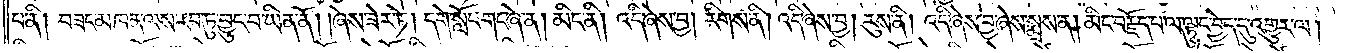པ་ནི། བཟང་མཁན་ལས་རབ་ཏུ་བྱུང་བ་ཡིན་ནོ། །ཞེས་ཟེར་ཏེ། དགེ་སློང་གང་ཞེ་ན། མིང་ནི། འདི་ཞེས་བྱ། རིགས་ནི། འདི་ཞེས་བྱ། རུས་ནི། འདི་ཞེས་བྱ་ཞེས་སྨྲས་ན། མིང་བརྗོད་པ་ལ་ལྟུང་བྱེད་དུ་འགྱུར་ལ།
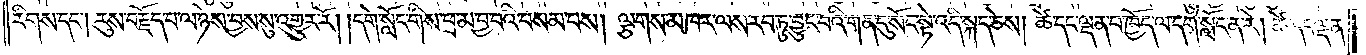རིགས་དང༌། རུས་བརྗོད་པ་ལ་ཉེས་བྱས་སུ་འགྱུར་རོ། །དགེ་སློང་གིས་ཕྲ་མ་བྱ་བའི་བསམ་པས། ལྕགས་མཁར་ལས་རབ་ཏུ་བྱུང་བའི་གན་དུ་སོང་སྟེ་འདི་སྐད་ཅེས། ཚེ་དང་ལྡན་པ་ཁྱོད་ལ་དགེ་སློང་ན་རེ། ཚེ་དང་ལྡན་
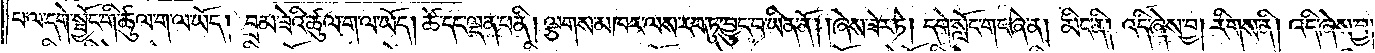པ་ལ་དགེ་སྦྱོང་གི་ཚུལ་ག་ལ་ཡོད། བྲམ་ཟེའི་ཚུལ་ག་ལ་ཡོད། ཚེ་དང་ལྡན་པ་ནི། ལྕགས་མཁར་ལས་རབ་ཏུ་བྱུང་བ་ཡིན་ནོ། །ཞེས་ཟེར་ཏེ། དགེ་སློང་གང་ཞེ་ན། མིང་ནི། འདི་ཞེས་བྱ། རིགས་ནི། འདི་ཞེས་བྱ།
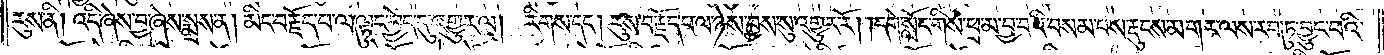རུས་ནི། འདི་ཞེས་བྱ་ཞེས་སྨྲས་ན། མིང་བརྗོད་པ་ལ་ལྟུང་བྱེད་དུ་འགྱུར་ལ། རིགས་དང༌། རུས་བརྗོད་པ་ལ་ཉེས་བྱས་སུ་འགྱུར་རོ། །དགེ་སློང་གིས་ཕྲ་མ་བྱ་བའི་བསམ་པས་རྡུངས་མགར་ལས་རབ་ཏུ་བྱུང་བའི་
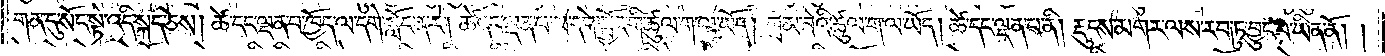གན་དུ་སོང་སྟེ་འདི་སྐད་ཅེས། ཚེ་དང་ལྡན་པ་ཁྱོད་ལ་དགེ་སློང་ན་རེ། ཚེ་དང་ལྡན་པ་ལ་དགེ་སྦྱོང་གི་ཚུལ་ག་ལ་ཡོད། བྲམ་ཟེའི་ཚུལ་ག་ལ་ཡོད། ཚེ་དང་ལྡན་པ་ནི། རྡུངས་མགར་ལས་རབ་ཏུ་བྱུང་བ་ཡིན་ནོ། །
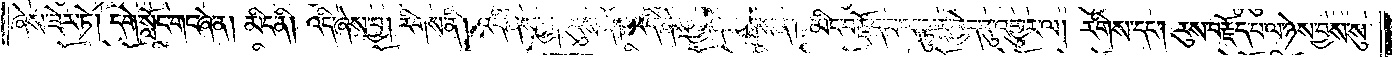ཞེས་ཟེར་ཏེ། དགེ་སློང་གང་ཞེ་ན། མིང་ནི། འདི་ཞེས་བྱ། རིགས་ནི། འདི་ཞེས་བྱ། རུས་ནི། འདི་ཞེས་བྱ་ཞེས་སྨྲས་ན། མིང་བརྗོད་པ་ལ་ལྟུང་བྱེད་དུ་འགྱུར་ལ། རིགས་དང༌། རུས་བརྗོད་པ་ལ་ཉེས་བྱས་སུ་
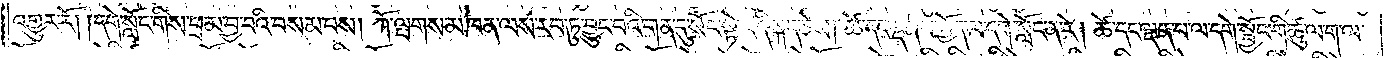འགྱུར་རོ། །དགེ་སློང་གིས་ཕྲ་མ་བྱ་བའི་བསམ་པས། ཀོ་ལྤགས་མཁན་ལས་རབ་ཏུ་བྱུང་བའི་གན་དུ་སོང་སྟེ་འདི་སྐད་ཅེས། ཚེ་དང་ལྡན་པ་ཁྱོད་ལ་དགེ་སློང་ན་རེ། ཚེ་དང་ལྡན་པ་ལ་དགེ་སྦྱོང་གི་ཚུལ་ག་ལ་
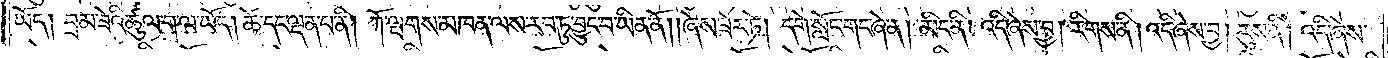ཡོད། བྲམ་ཟེའི་ཚུལ་ག་ལ་ཡོད། ཚེ་དང་ལྡན་པ་ནི། ཀོ་ལྤགས་མཁན་ལས་རབ་ཏུ་བྱུང་བ་ཡིན་ནོ། །ཞེས་ཟེར་ཏེ། དགེ་སློང་གང་ཞེ་ན། མིང་ནི། འདི་ཞེས་བྱ། རིགས་ནི། འདི་ཞེས་བྱ། རུས་ནི། འདི་ཞེས་
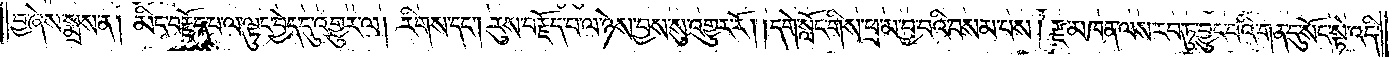བྱ་ཞེས་སྨྲས་ན། མིང་བརྗོད་པ་ལ་ལྟུང་བྱེད་དུ་འགྱུར་ལ། རིགས་དང༌། རུས་བརྗོད་པ་ལ་ཉེས་བྱས་སུ་འགྱུར་རོ། །དགེ་སློང་གིས་ཕྲ་མ་བྱ་བའི་བསམ་པས། རྫ་མཁན་ལས་རབ་ཏུ་བྱུང་བའི་གན་དུ་སོང་སྟེ་འདི་
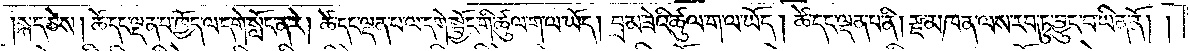སྐད་ཅེས། ཚེ་དང་ལྡན་པ་ཁྱོད་ལ་དགེ་སློང་ན་རེ། ཚེ་དང་ལྡན་པ་ལ་དགེ་སྦྱོང་གི་ཚུལ་ག་ལ་ཡོད། བྲམ་ཟེའི་ཚུལ་ག་ལ་ཡོད། ཚེ་དང་ལྡན་པ་ནི། རྫ་མཁན་ལས་རབ་ཏུ་བྱུང་བ་ཡིན་ནོ། །
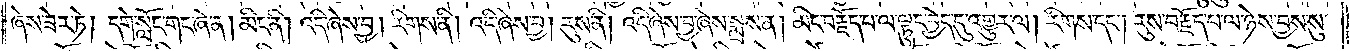ཞེས་ཟེར་ཏེ། དགེ་སློང་གང་ཞེ་ན། མིང་ནི། འདི་ཞེས་བྱ། རིགས་ནི། འདི་ཞེས་བྱ། རུས་ནི། འདི་ཞེས་བྱ་ཞེས་སྨྲས་ན། མིང་བརྗོད་པ་ལ་ལྟུང་བྱེད་དུ་འགྱུར་ལ། རིགས་དང༌། རུས་བརྗོད་པ་ལ་ཉེས་བྱས་སུ་
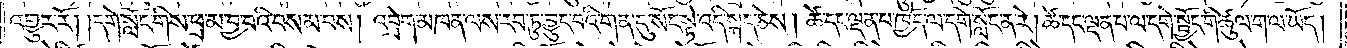འགྱུར་རོ། །དགེ་སློང་གིས་ཕྲ་མ་བྱ་བའི་བསམ་པས། འབྲེག་མཁན་ལས་རབ་ཏུ་བྱུང་བའི་གན་དུ་སོང་སྟེ་འདི་སྐད་ཅེས། ཚེ་དང་ལྡན་པ་ཁྱོད་ལ་དགེ་སློང་ན་རེ། ཚེ་དང་ལྡན་པ་ལ་དགེ་སྦྱོང་གི་ཚུལ་ག་ལ་ཡོད།
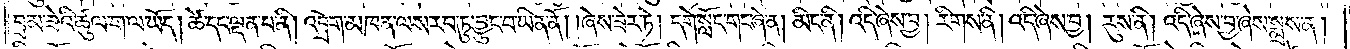བྲམ་ཟེའི་ཚུལ་ག་ལ་ཡོད། ཚེ་དང་ལྡན་པ་ནི། འབྲེག་མཁན་ལས་རབ་ཏུ་བྱུང་བ་ཡིན་ནོ། །ཞེས་ཟེར་ཏེ། དགེ་སློང་གང་ཞེ་ན། མིང་ནི། འདི་ཞེས་བྱ། རིགས་ནི། འདི་ཞེས་བྱ། རུས་ནི། འདི་ཞེས་བྱ་ཞེས་སྨྲས་ན།
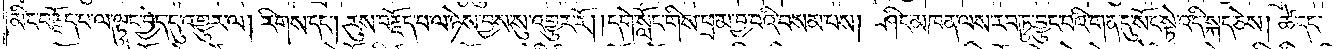མིང་བརྗོད་པ་ལ་ལྟུང་བྱེད་དུ་འགྱུར་ལ། རིགས་དང༌། རུས་བརྗོད་པ་ལ་ཉེས་བྱས་སུ་འགྱུར་རོ། །དགེ་སློང་གིས་ཕྲ་མ་བྱ་བའི་བསམ་པས། ཤིང་མཁན་ལས་རབ་ཏུ་བྱུང་བའི་གན་དུ་སོང་སྟེ་འདི་སྐད་ཅེས། ཚེ་དང་
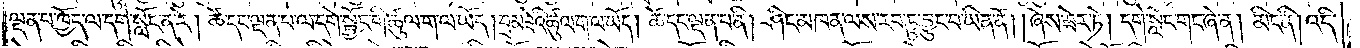ལྡན་པ་ཁྱོད་ལ་དགེ་སློང་ན་རེ། ཚེ་དང་ལྡན་པ་ལ་དགེ་སྦྱོང་གི་ཚུལ་ག་ལ་ཡོད། བྲམ་ཟེའི་ཚུལ་ག་ལ་ཡོད། ཚེ་དང་ལྡན་པ་ནི། ཤིང་མཁན་ལས་རབ་ཏུ་བྱུང་བ་ཡིན་ནོ། །ཞེས་ཟེར་ཏེ། དགེ་སློང་གང་ཞེ་ན། མིང་ནི། འདི་
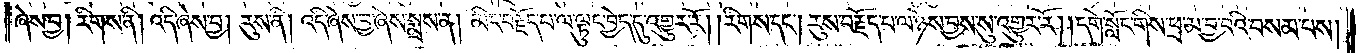ཞེས་བྱ། རིགས་ནི། འདི་ཞེས་བྱ། རུས་ནི། འདི་ཞེས་བྱ་ཞེས་སྨྲས་ན། མིང་བརྗོད་པ་ལ་ལྟུང་བྱེད་དུ་འགྱུར་རོ། །རིགས་དང༌། རུས་བརྗོད་པ་ལ་ཉེས་བྱས་སུ་འགྱུར་རོ། །དགེ་སློང་གིས་ཕྲ་མ་བྱ་བའི་བསམ་པས།
